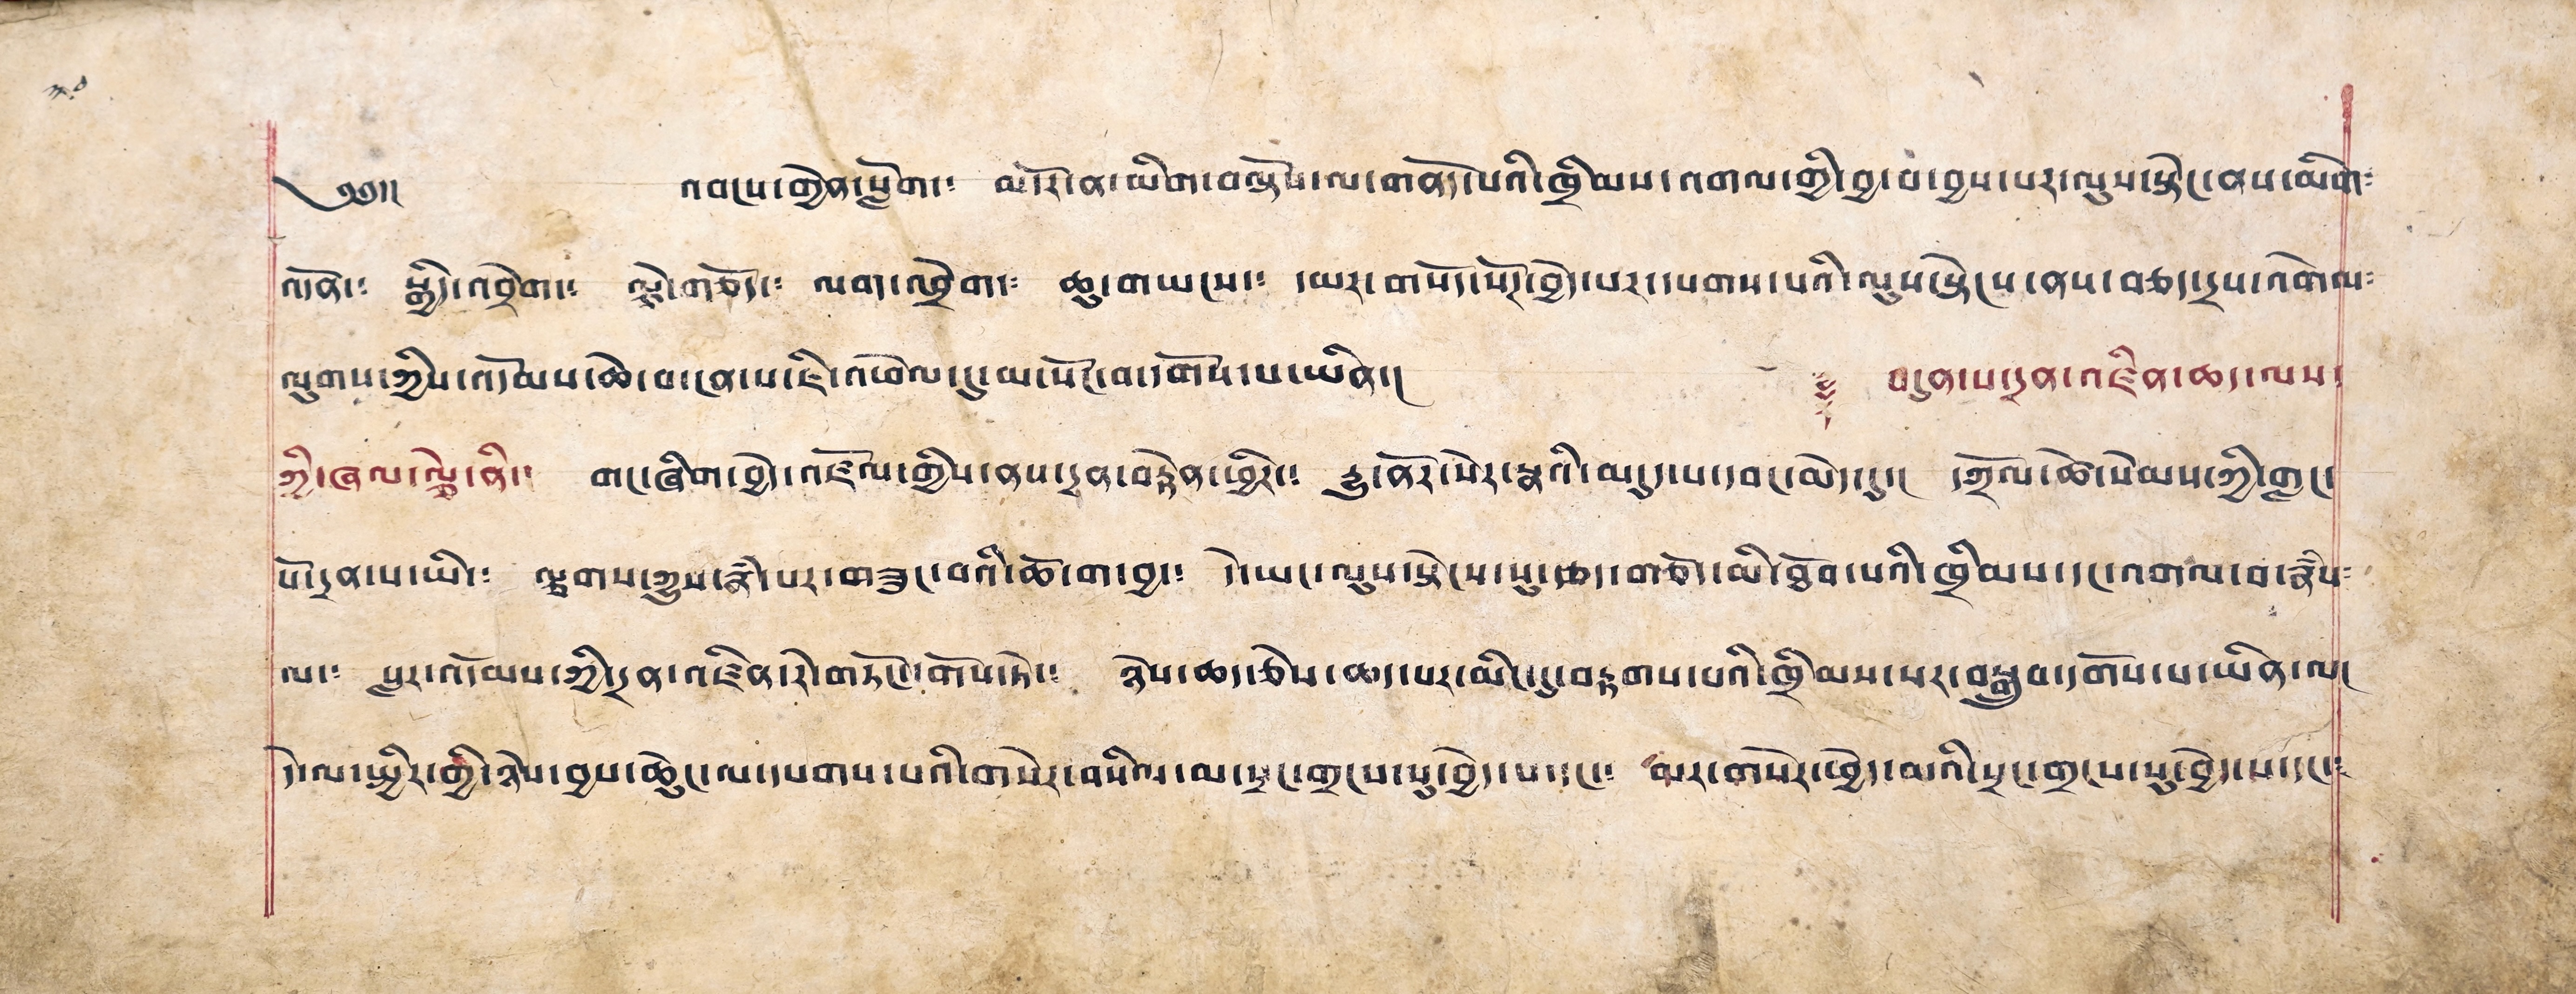༣༠
༄༅།། འབངས་གྱེན་སློག་༴ མདོར་ན་མིག་བལྟོས་ལ་གནོད་པའི་ཁྲིམས་འགལ་གྱི་བྱ་བ་བྱས་པར་ལུས་སྟེང་ནས་མིག༴
འདོན་༴ སྒྱིད་འབྲེག་༴ ལྕེ་གཅོད་༴ ལག་འབྲེག་༴ ཆུ་གཡངས་༴ དམར་གསོད་སོགས་བྱེད་པར་དཔགས་པའི་ལུས་སྟེངས་ནས་བཅད་དྲས་འགེལ༴
ལུགས་ཀྱིས་འདོམས་ཆེ་བ་ངན་པ་ཇི་འཕེལ་དུ་མ་སོང་བ་དགོས་པ་ཡིན་། ༈ བདུན་པ་དྲན་འཛིན་ཆད་ལས་
ཀྱི་ཞལ་ལྕེ་ནི་། གང་ཞིག་བྱེད་འཛོལ་གྱིས་ནས་དྲན་བརྟེན་ཕྱིར་༴ རྒྱུ་ནོར་སེར་སྣའི་མདུད་པ་དབང་མེད་དུ་། དཀྲོལ་ཚེ་སེམས་ཀྱི་གླང་
པོ་དྲན་པ་ཡི་༴ ལྕགས་ཀྱུས་རྣམ་པར་གཟུང་བའི་ཆོ་ག་བྱ་༴ དེ་ཡང་ལུས་སྟེངས་པ་རྩད་གཅོད་མི་ཐོབ་པའི་ཁྲིམས་དང་འགལ་བ་རྣཾས༴
ལ་༴ སླར་འདོམས་ཀྱི་དྲན་འཛིན་རེ་གཏོང་དགོས་ཏེ་༴ ཉེས་ཆད་ཅེས་ཆད་པར་མིང་དུ་བརྟགས་པའི་ཁྲིམས་སར་བསྒྲུབ་དགོས་པ་ཡིན་ལ།
དེ་ལ་སྤྱིར་གྱི་ཉེས་བྱས་ཆེུང་ལ་དཔགས་པའི་གསེར་བསིལ་མ་སྲང་གྲངས་སུ་བྱེད་པ་དང་༴ མར་གསེར་ཕྱེད་མའི་སྲང་གྲངས་སུ་བྱེད་པ་དང་༴
